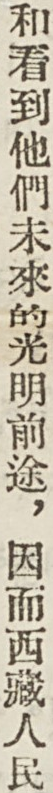和看到他們未來的光明前途，因而西藏人民
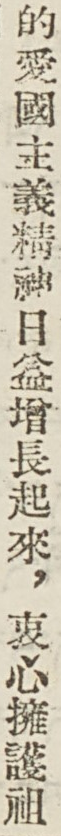的愛國主義精神日益增長起來，衷心擁護祖
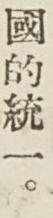國的統一。
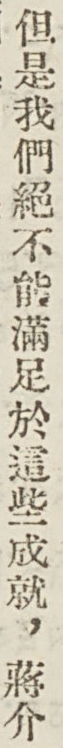但是我們絕不能滿足於這些成就，蔣介
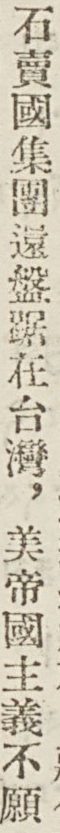石賣國集團還盤踞在臺灣，美帝國主義不願
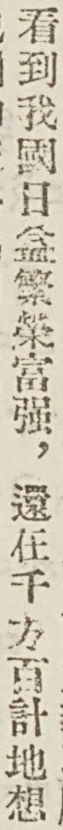看到我國日益繁榮富強，還在千方百計地想
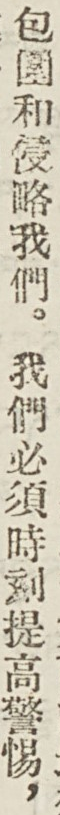包圍和侵略我們。我們必須時刻提高警惕，
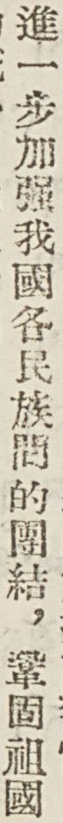進一步加強我國各民族間的團結，鞏固祖國
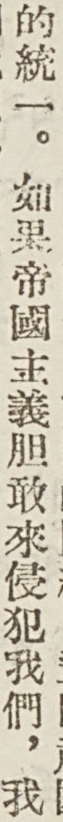的統一。如果帝國主義膽敢來侵犯我們，我
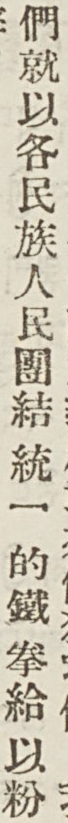們就以各民族人民團結 統一 的鐵拳給以粉
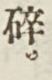碎。
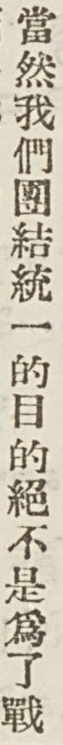當然我們團結統一的目的絕不是爲了戰
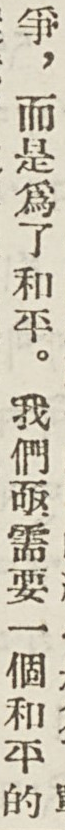爭，而是爲了和平。我們亟需要一個和平的
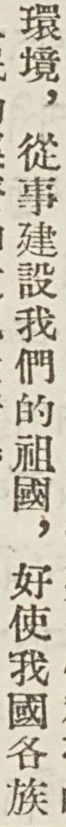環境，從事建設我們的祖國，好使我國各族
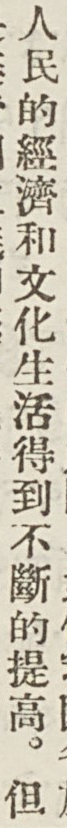人民的經濟和文化生活得到不斷的提高。但
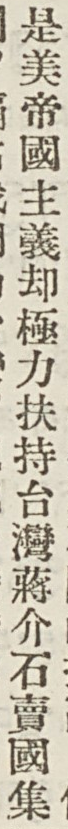是美帝國主義却極力扶持台灣蔣介石賣國集
